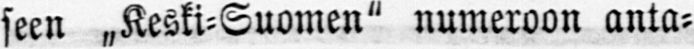seen „Keski-Suomen" numeroon anta-
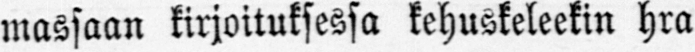massaan kirjoituksessa kehuskeleekin hra
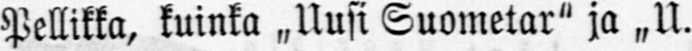Pellikka, kuinka „Uusi Suometar" ja „U.
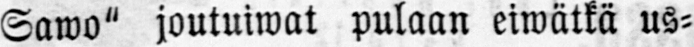Sawo" joutuiwat pulaan eiwätkä us-
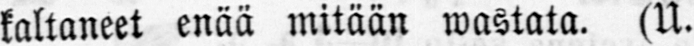kaltaneet enää mitään wastata. (U.
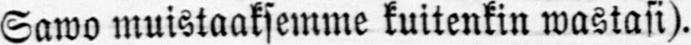Sawo muistaaksemme kuitenkin wastasi).
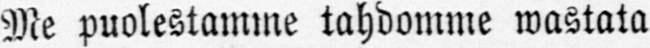Me puolestamme tahdomme wastata
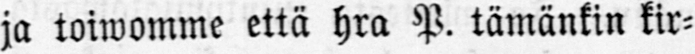ja toiwomme että hra P. tämänkin kir-
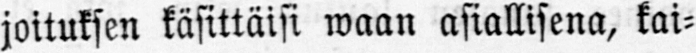joituksen käsittäisi waan asiallisena, kai-
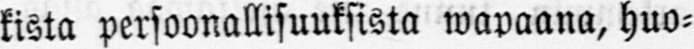kista persoonallisuuksista wapaana, huo-
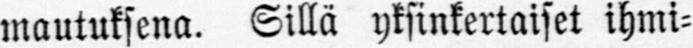mautuksena. Sillä yksinkertaiset ihmi-
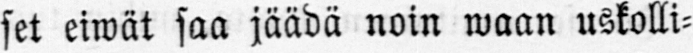set eiwät saa jäädä noin waan uskolli-
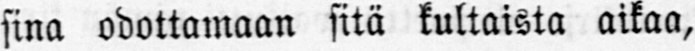sina odottamaan sitä kultaista aikaa,
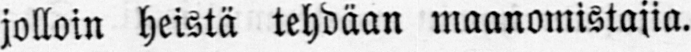jolloin heistä tehdään maanomistajia.
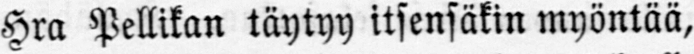Hra Pellikan täytyy itsensäkin myöntää,
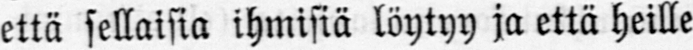että sellaisia ihmisiä löytyy ja että heille
